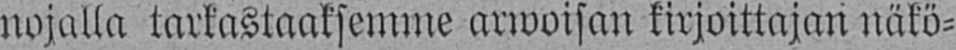nojalla tarkastaaksemme arwoisan kirjoittajan näkö-
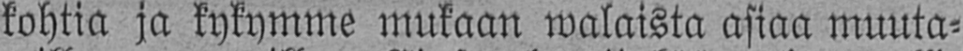kohtia ja kykymme mukaan walaista asiaa muuta-
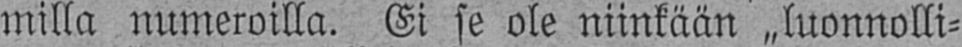milla numeroilla. Ei se ole niinkään „luonnolli-
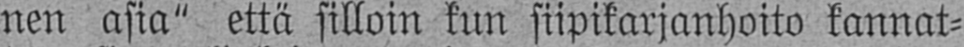nen asia" että silloin kun siipikarjanhoito kannat-
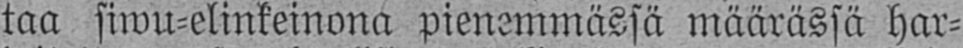taa siwu-elinkeinona pienemmässä määrässä har-
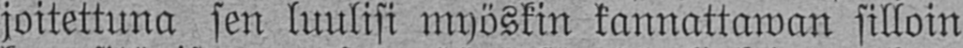joitettuna sen luulisi myöskin kannattawan silloin
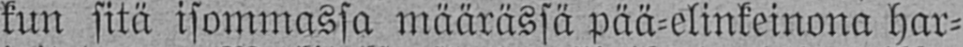kun sitä isommassa määrässä pää-elinkeinona har-
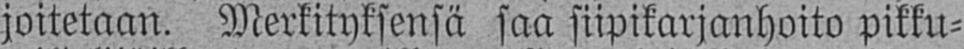joitetaan. Merkityksensä saa siipikarjanhoito pikku-
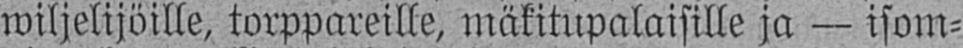wiljelijöille, torppareille, mäkitupalaisille ja — isom-
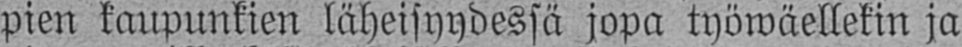pien kaupunkien läheisyydessä jopa työwäellekin ja
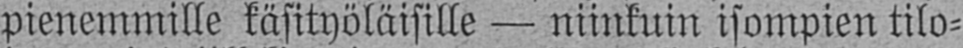pienemmille käsityöläisille — niinkuin isompien tilo-
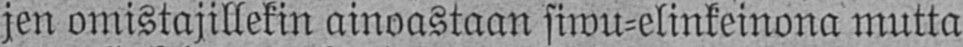jen omistajillekin ainoastaan siwu-elinkeinona mutta
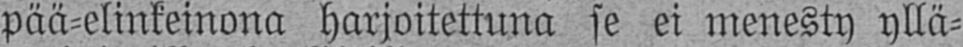pää-elinkeinona harjoitettuna se ei menesty yllä-
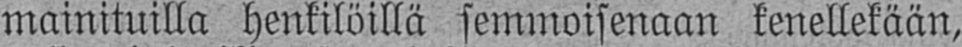mainituilla henkilöillä semmoisenaan kenellekään,
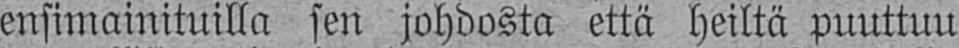ensimainituilla sen johdosta että heiltä puuttuu
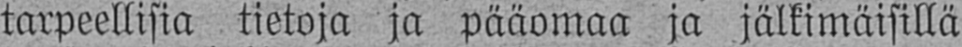tarpeellisia tietoja ja pääomaa ja jälkimäisillä
